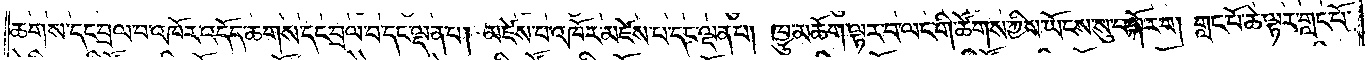ཆགས་དང་བྲལ་བ་འཁོར་འདོད་ཆགས་དང་བྲལ་བ་དང་ལྡན་པ། མཛེས་པ་འཁོར་མཛེས་པ་དང་ལྡན་པ། ཁྱུ་མཆོག་ལྟར་བ་ལང་གི་ཚོགས་ཀྱིས་ཡོངས་སུ་བསྐོར་བ། གླང་པོ་ཆེ་ལྟར་གླང་པོ་
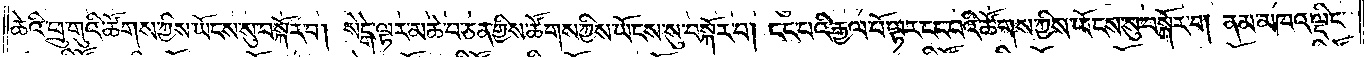ཆེའི་ཕྲུ་གུའི་ཚོགས་ཀྱིས་ཡོངས་སུ་བསྐོར་བ། སེངྒེ་ལྟར་མཆེ་བ་ཅན་གྱིས་ཚོགས་ཀྱིས་ཡོངས་སུ་བསྐོར་བ། ངང་པའི་རྒྱལ་པོ་ལྟར་ངང་པའི་ཚོགས་ཀྱིས་ཡོངས་སུ་བསྐོར་བ། ནམ་མཁའ་ལྡིང་
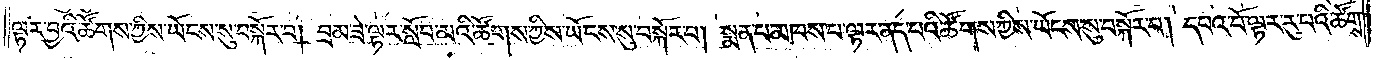ལྟར་བྱའི་ཚོགས་ཀྱིས་ཡོངས་སུ་བསྐོར་བ། བྲམ་ཟེ་ལྟར་སློབ་མའི་ཚོགས་ཀྱིས་ཡོངས་སུ་བསྐོར་བ། སྨན་པ་མཁས་པ་ལྟར་ནད་པའི་ཚོགས་ཀྱིས་ཡོངས་སུ་བསྐོར་བ། དཔའ་བོ་ལྟར་རུ་བའི་ཚོགས་
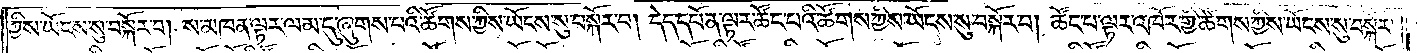ཀྱིས་ཡོངས་སུ་བསྐོར་བ། ས་མཁན་ལྟར་ལམ་དུ་ཞུགས་པའི་ཚོགས་ཀྱིས་ཡོངས་སུ་བསྐོར་བ། དེད་དཔོན་ལྟར་ཚོང་པའི་ཚོགས་ཀྱིས་ཡོངས་སུ་བསྐོར་བ། ཚོང་པ་ལྟར་འཁོར་གྱི་ཚོགས་ཀྱིས་ཡོངས་སུ་བསྐོར་
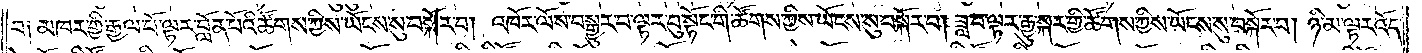བ༑ མཁར་གྱི་རྒྱལ་པོ་ལྟར་བློན་པོའི་ཚོགས་ཀྱིས་ཡོངས་སུ་བསྐོར་བ། འཁོར་ལོས་བསྒྱུར་བ་ལྟར་བུ་སྟོང་གི་ཚོགས་ཀྱིས་ཡོངས་སུ་བསྐོར་བ། ཟླ་བ་ལྟར་རྒྱུ་སྐར་གྱི་ཚོགས་ཀྱིས་ཡོངས་སུ་བསྐོར་བ། ཉི་མ་ལྟར་འོད་
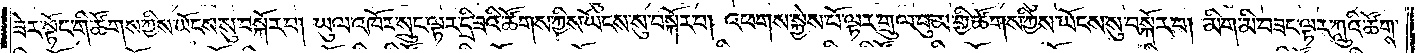ཟེར་སྟོང་གི་ཚོགས་ཀྱིས་ཡོངས་སུ་བསྐོར་བ། ཡུལ་འཁོར་སྲུང་ལྟར་དྲི་ཟའི་ཚོགས་ཀྱིས་ཡོངས་སུ་བསྐོར་བ། འཕགས་སྐྱེས་པོ་ལྟར་གྲུལ་བུམ་གྱི་ཚོགས་ཀྱིས་ཡོངས་སུ་བསྐོར་བ། མིག་མི་བཟང་ལྟར་ཀླུའི་ཚོགས་
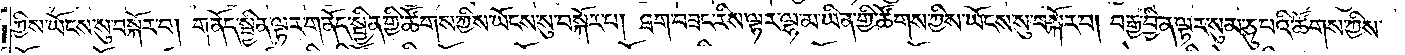ཀྱིས་ཡོངས་སུ་བསྐོར་བ། གནོད་སྦྱིན་ལྟར་གནོད་སྦྱིན་གྱི་ཚོགས་ཀྱིས་ཡོངས་སུ་བསྐོར་བ། ཐག་བཟང་རིས་ལྟར་ལྷ་མ་ཡིན་གྱི་ཚོགས་ཀྱིས་ཡོངས་སུ་བསྐོར་བ། བརྒྱ་བྱིན་ལྟར་སུམ་ཅུ་པའི་ཚོགས་ཀྱིས་
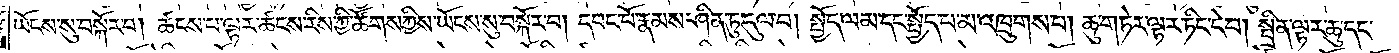ཡོངས་སུ་བསྐོར་བ། ཚངས་པ་ལྟར་ཚངས་རིས་ཀྱི་ཚོགས་ཀྱིས་ཡོངས་སུ་བསྐོར་བ། དབང་པོ་རྣམས་ཤིན་ཏུ་དུལ་བ། སྤྱོད་ལམ་དང་སྤྱོད་པ་མ་འཁྲུགས་པ། ཆུ་གཏེར་ལྟར་ཏིང་ངེ་བ། སྤྲིན་ལྟར་ཆུ་དང་
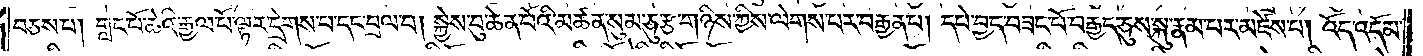བཅས་པ། གླང་པོ་ཆེའི་རྒྱལ་པོ་ལྟར་དྲེགས་པ་དང་བྲལ་བ། སྐྱེས་བུ་ཆེན་པོའི་མཚན་སུམ་ཅུ་རྩ་གཉིས་ཀྱིས་ལེགས་པར་བརྒྱན་པ། དཔེ་བྱད་བཟང་པོ་བརྒྱད་ཅུས་སྐུ་རྣམ་པར་མཛེས་པ། འོད་འདོམ་
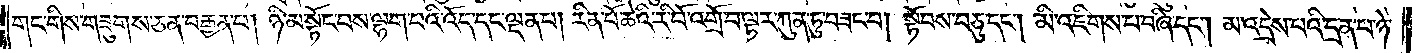གང་གིས་གཟུགས་ཅན་བརྒྱན་པ། ཉི་མ་སྟོང་བས་ལྷག་པའི་འོད་དང་ལྡན་པ། རིན་པོ་ཆེའི་རི་བོ་འགྲོ་བ་ལྟར་ཀུན་ཏུ་བཟང་བ། སྟོབས་བཅུ་དང༌། མི་འཇིགས་པ་བཞི་དང༌། མ་འདྲེས་པའི་དྲན་པ་ཉེ་
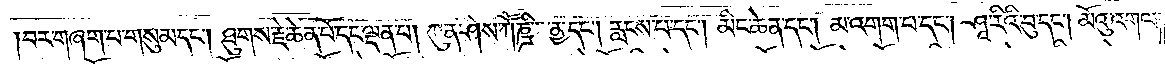།བར་གཞག་པ་གསུམ་དང༌། ཐུགས་རྗེ་ཆེན་པོ་དང་ལྡན་པ། ཀུན་ཤེས་ཀཽཎྜི་ནྱ་དང༌། རླངས་པ་དང༌། མིང་ཆེན་དང༌། མ་འགག་པ་དང༌། ཤཱ་རིའི་བུ་དང༌། མོའུ་འགལ་
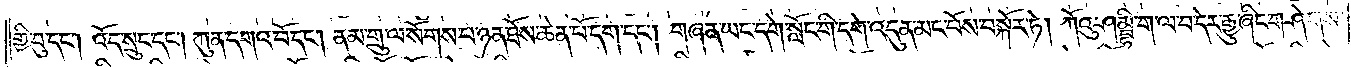གྱི་བུ་དང༌། འོད་སྲུང་དང༌། ཀུན་དགའ་བོ་དང༌། ནམ་གྲུ་ལ་སོགས་པ་ཉན་ཐོས་ཆེན་པོ་དག་དང༌། གཞན་ཡང་དགེ་སློང་གི་དགེ་འདུན་མང་པོས་བསྐོར་ཏེ། ཀོའུ་ཤམྦྷི་ག་ལ་བ་དེར་རྒྱུ་ཞིང་གཤེགས་
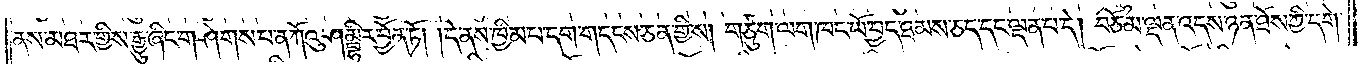ནས་མཐར་གྱིས་རྒྱུ་ཞིང་གཤེགས་པ་ན་ཀོའུ་ཤམྦྷིར་བྱོན་ཏོ། །དེ་ནས་ཁྱིམ་པ་དག་གདངས་ཅན་གྱིས། གཙུག་ལག་ཁང་ཡོ་བྱད་ཐམས་ཅད་དང་ལྡན་པ་དེ། བཅོམ་ལྡན་འདས་ཉན་ཐོས་ཀྱི་དགེ་
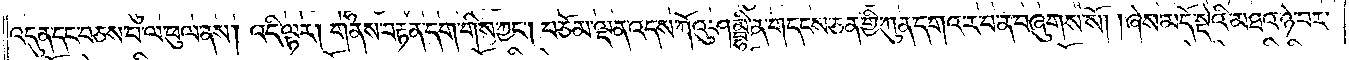འདུན་དང་བཅས་པ་ལ་ཕུལ་ནས། འདི་ལྟར། གནས་བརྟན་དག་གིས་ཀྱང༌། བཅོམ་ལྡན་འདས་ཀོའུ་ཤམྦྷི་ན་གདངས་ཅན་གྱི་ཀུན་དགའ་ར་བ་ན་བཞུགས་སོ། །ཞེས་མདོ་སྡེའི་མཐའ་ཉེ་བར་
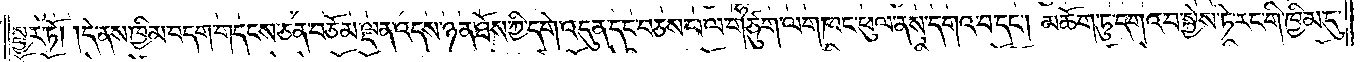སྦྱར་ཏོ། །དེ་ནས་ཁྱིམ་བདག་གདངས་ཅན་བཅོམ་ལྡན་འདས་ཉན་ཐོས་ཀྱི་དགེ་འདུན་དང་བཅས་པ་ལ་གཙུག་ལག་ཁང་ཕུལ་ནས་དགའ་བ་དང༌། མཆོག་ཏུ་དགའ་བ་སྐྱེས་ཏེ་རང་གི་ཁྱིམ་དུ་
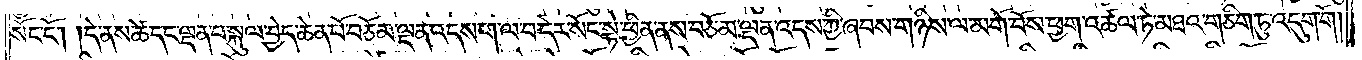སོང་ངོ༌། །དེ་ནས་ཚེ་དང་ལྡན་པ་སྐུལ་བྱེད་ཆེན་པོ་བཅོམ་ལྡན་འདས་ག་ལ་བ་དེར་སོང་སྟེ་ཕྱིན་ནས་བཅོམ་ལྡན་འདས་ཀྱི་ཞབས་གཉིས་ལ་མགོ་བོས་ཕྱག་འཚལ་ཏེ་མཐའ་གཅིག་ཏུ་འདུག་གོ།
